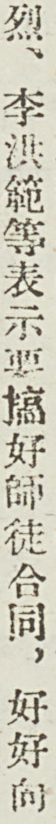烈、李洪範等表示要搞好師徒合同，好好向
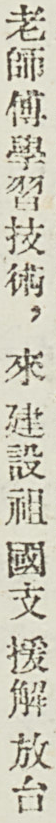老師傅學習技術，來建設祖國支援解放台
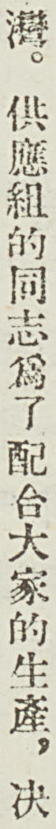灣。供應組的同志爲了配合大家的生產，決
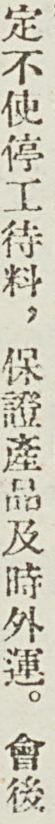定不使停工待料，保證產品及時外運。會後
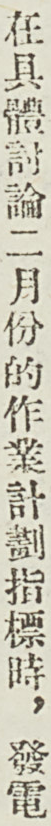在具體討論二月份的作業計劃指標時，發電
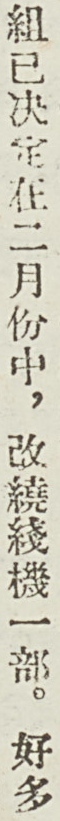組已決定在二月份中，改繞綫機一部。好多
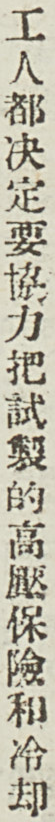工人都決定要協力把試製的高壓保險和冷卻
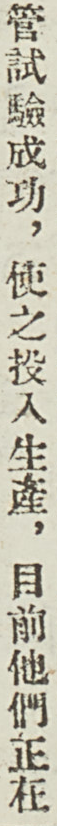管試驗成功，使之投入生產，目前他們正在
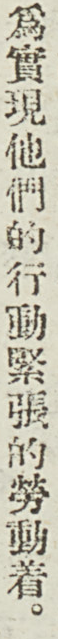爲實現他們的行動緊張的勞動着。
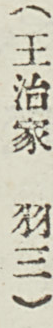（王治家 羽三）
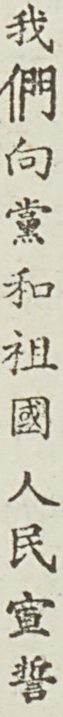我們向黨和祖國人民宣誓
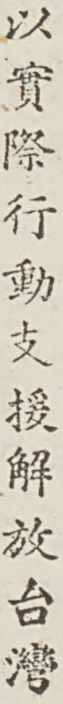以實際行動支援解放台灣
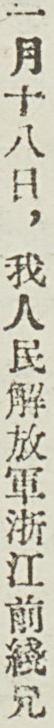一月十八日，我人民解放軍浙江前綫兄
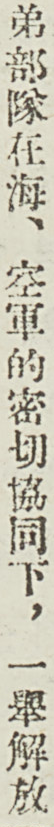弟部隊在海、空軍的密切協同下，一舉解放
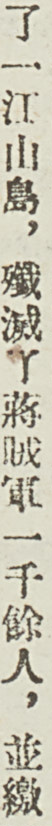了一江山島，殲滅了蔣賊軍一千餘人，並繳
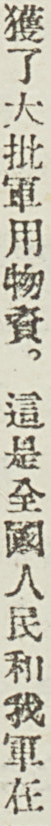獲了大批軍用物資。這是全國人民和我軍在
